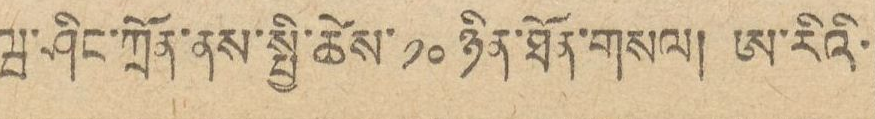ཝ་ཤིང་ཀྲོན་ནས་སྤྱི་ཚེས་ ༡༠ ཉིན་ཐོན་གསལ། ཨ་རིའི་
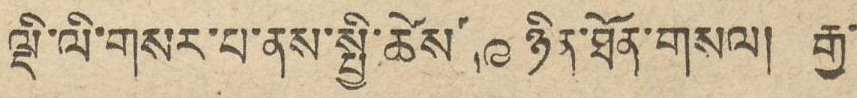ལྡི་ལི་གསར་པ་ནས་སྤྱི་ཚེས་ ༩ ཉིན་ཐོན་གསལ། རྒྱ་
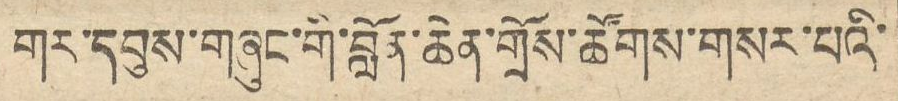གར་དབུས་གཞུང་གི་བློན་ཆེན་གྲོས་ཚོགས་གསར་པའི་
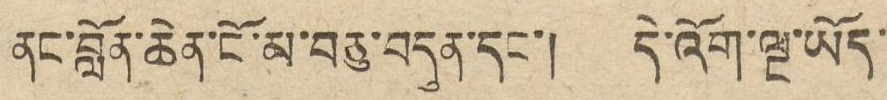ནང་བློན་ཆེན་ངོ་མ་བཅུ་བདུན་དང་། དེ་འོག་ལྔ་ཡོད་
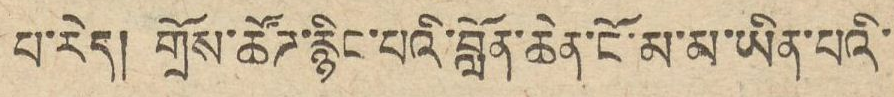པ་རེད། གྲོས་ཚོཌ་རྙིང་པའི་བློན་ཆེན་ངོ་མ་མ་ཡིན་པའི་
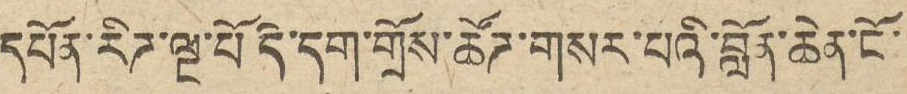དཔོན་རིཌ་ལྔ་པོ དེ་དག་གྲོས་ཚོཊ་གསར་པའི་བློན་ཆེན་ངོ་
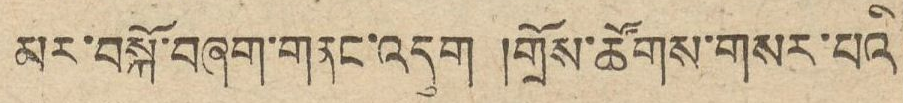མར་བསྐོ་བཞག་གནང་འདུག །གྲོས་ཚོགས་གསར་པའི
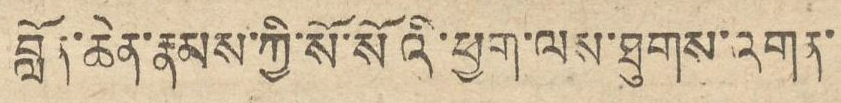བློན་ཆེན་རྣམས་ཀྱི་སོ་སོའི་ཕྱག་ལས་ཐུགས་འགན་
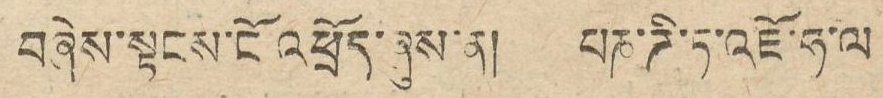བཞེས་སྟངས་ངོ འཕྲོད་ཞུས་ན། པཎ་ཌི་ཏ་འཇོ་ཧ་ལ
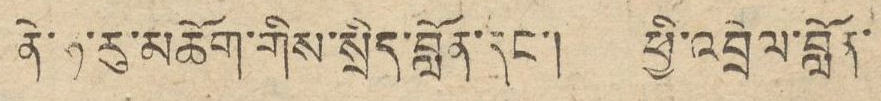ནེ་ཧ་རུ་མཆོག་གིས་སྲིད་བློན་དང་། ཕྱི་འབྲེལ་བློན་
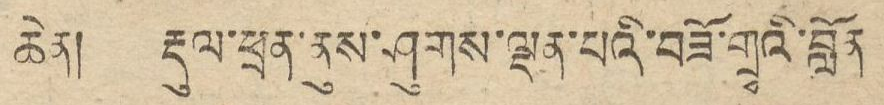ཆེན། རྡུལ་ཕྲན་ནུས་ཤུགས་ལྡན་པའི་བཟོ་གྲྭའི་བློན
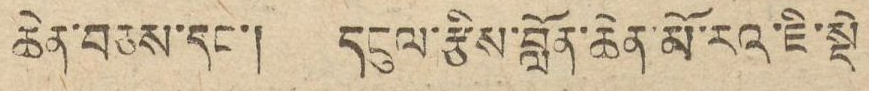ཆེན་བཅས་དང་། དངུལ་རྩིས་བློན་ཆེན་མོ་རའ་ཇི་སྡེ་
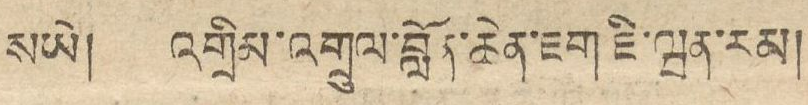སཡེ། འགྲིམ་འགྲུལ་བློན་ཆེན་ཇག ཇི་ཝན་རམ།
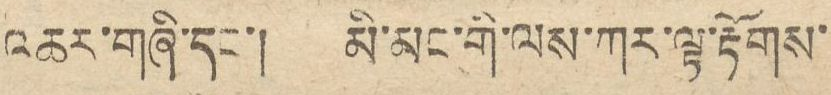འཆར་གཞི་དང་། མི་མང་གི་ལས་ཀར་ལྟ་རྟོགས་
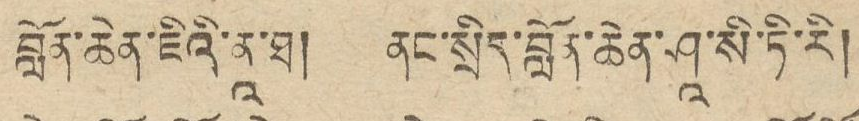བློན་ཆེན་ཇིའི་ནཱ་ཐ། ནང་སྲིད་བློན་ཆེན་ཤཱ་སི་ཏི་རི།
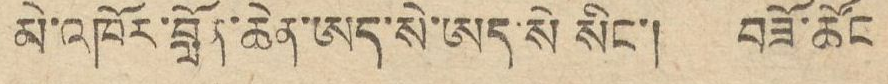མེ་འཁོར་བློན་ཆེན་ཨད་སེ་ཨད་སེ སིང་། བཟོ་ཚོང
